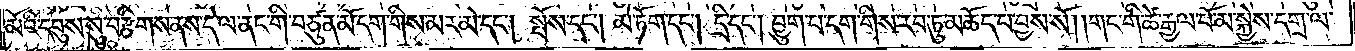མོའི་དབུས་སུ་བརྩིགས་ནས་དེ་ལ་ནང་གི་བཙུན་མོ་དག་གིས་མར་མེ་དང༌། སྤོས་དང༌། མེ་ཏོག་དང༌། དྲི་དང༌། བྱུག་པ་དག་གིས་རབ་ཏུ་མཆོད་པ་བྱས་སོ། །གང་གི་ཚེ་རྒྱལ་པོ་མ་སྐྱེས་དགྲ་ལ་
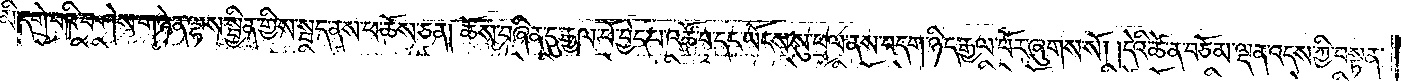མི་དགེ་བའི་བཤེས་གཉེན་ལྷས་སྦྱིན་གྱིས་སྦད་ནས་ཕ་ཆོས་ཅན། ཆོས་བཞིན་དུ་རྒྱལ་པོ་བྱེད་པ་འཚོ་བ་དང་ཡོངས་སུ་ཕྲལ་ནས་བདག་ཉིད་རྒྱལ་པོར་ཞུགས་སོ། །དེའི་ཚེ་ན་བཅོམ་ལྡན་འདས་ཀྱི་བསྟན་
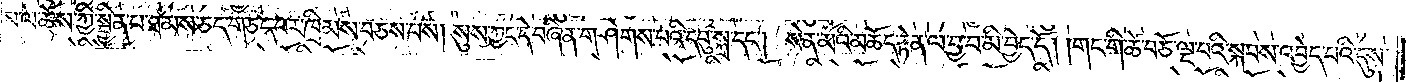པ་ལ་ཆོས་ཀྱི་སྦྱིན་པ་ཐམས་ཅད་གཅད་པར་ཁྲིམས་བཅས་པས། སུས་ཀྱང་དེ་བཞིན་གཤེགས་པའི་དབུ་སྐྲ་དང༌། སེན་མོའི་མཆོད་རྟེན་ལ་བྱ་བ་མི་བྱེད་དོ། །གང་གི་ཚེ་བཅོ་ལྔ་པའི་སྐབས་འབྱེད་པའི་དུས་
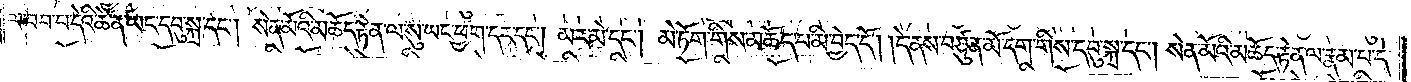ལ་བབ་པ་དེའི་ཚེ་ན་ཡང་དབུ་སྐྲ་དང༌། སེན་མོའི་མཆོད་རྟེན་ལ་སུ་ཡང་ཕྱག་དར་དང༌། མར་མེ་དང༌། མེ་ཏོག་གིས་མཆོད་པ་མི་བྱེད་དོ། །དེ་ནས་བཙུན་མོ་དག་གིས་དབུ་སྐྲ་དང༌། སེན་མོའི་མཆོད་རྟེན་ལ་རྣམ་པ་དེ་
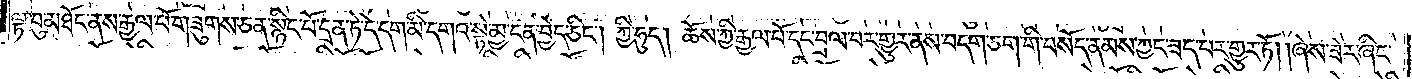ལྟ་བུ་མཐོང་ནས་རྒྱལ་པོ་གཟུགས་ཅན་སྙིང་པོ་དྲན་ཏེ་དེ་དག་མི་དགའ་སྟེ་མྱ་ངན་བྱེད་ཅིང༌། ཀྱི་ཧུད། ཆོས་ཀྱི་རྒྱལ་པོ་དང་བྲལ་བར་གྱུར་ནས་བདག་ཅག་གི་བསོད་ནམས་ཀྱང་ཟད་པར་གྱུར་ཏོ། །ཞེས་ཟེར་ཞིང་
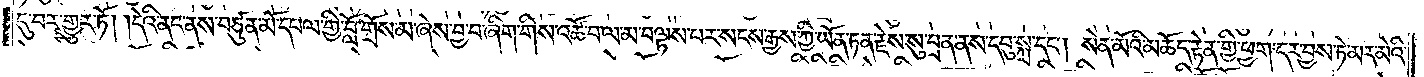དུ་བར་གྱུར་ཏོ། །དེའི་ནང་ནས་བཙུན་མོ་དཔལ་གྱི་བློ་གྲོས་མ་ཞེས་བྱ་བ་ཞིག་གིས་འཚོ་བ་ལ་མ་བལྟས་པར་སངས་རྒྱས་ཀྱི་ཡོན་ཏན་རྗེས་སུ་བྲན་ནས་དབུ་སྐྲ་དང༌། སེན་མོའི་མཆོད་རྟེན་གྱི་ཕྱག་དར་བྱས་ཏེ་མར་མེའི་
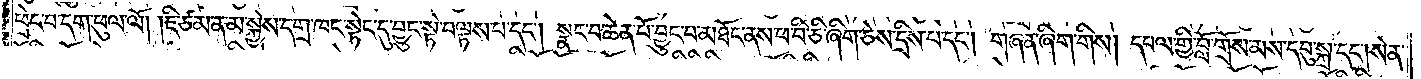ཕྲེང་བ་དག་ཕུལ་ལོ། །ཇི་ཙམ་ན་མ་སྐྱེས་དགྲ་ཁང་སྟེང་དུ་བྱུང་སྟེ་བལྟས་པ་དང༌། སྣང་བ་ཆེན་པོ་བྱུང་བ་མཐོང་ནས་ཕ་བི་ཅི་ཞིག་ཅེས་དྲིས་པ་དང༌། གཞན་ཞིག་གིས། དཔལ་གྱི་བློ་གྲོས་མས་དབུ་སྐྲ་དང༌། སེན་
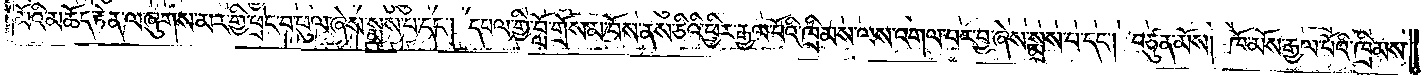མོའི་མཆོད་རྟེན་ལ་ཞུགས་མར་གྱི་ཕྲེང་བ་ཕུལ་ཞེས་སྨྲས་པ་དང༌། དཔལ་གྱི་བློ་གྲོས་མ་བོས་ནས་ཅིའི་ཕྱིར་རྒྱལ་པོའི་ཁྲིམས་ལས་འགལ་བར་བྱ་ཞེས་སྨྲས་པ་དང༌། བཙུན་མོས། ཁོ་མོས་རྒྱལ་པོའི་ཁྲིམས་
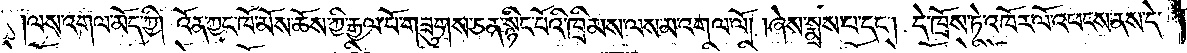ལས་འགལ་མོད་ཀྱི། འོན་ཀྱང་ཁོ་མོས་ཆོས་ཀྱི་རྒྱལ་པོ་གཟུགས་ཅན་སྙིང་པོའི་ཁྲིམས་ལས་མ་འགལ་ལོ། །ཞེས་སྨྲས་པ་དང༌། དེ་ཁྲོས་ཏེ་འཁོར་ལོ་འཕངས་ནས་དེ་
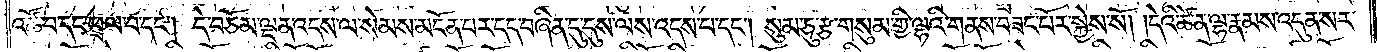འཚོ་བ་དང་ཕྲལ་བ་དང༌། དེ་བཅོམ་ལྡན་འདས་ལ་སེམས་མངོན་པར་དད་བཞིན་དུ་དུས་ལས་འདས་པ་དང༌། སུམ་ཅུ་རྩ་གསུམ་གྱི་ལྷའི་གནས་བཟང་པོར་སྐྱེས་སོ། །དེའི་ཚེ་ན་ལྷ་རྣམས་འདུན་སར་
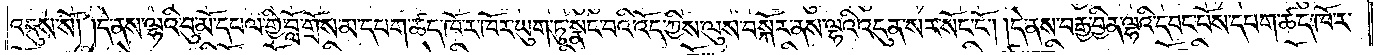འདུས་སོ། །དེ་ནས་ལྷའི་བུ་མོ་དཔལ་གྱི་བློ་གྲོས་མ་དཔག་ཚད་ཁོ་ར་ཁོར་ཡུག་ཏུ་སྣང་བའི་འོད་ཀྱིས་ལུས་བསྐོར་ནས་ལྷའི་འདུན་སར་སོང་ངོ༌། །དེ་ནས་བརྒྱ་བྱིན་ལྷའི་དབང་པོས་དཔག་ཚད་ཁོ་ར་
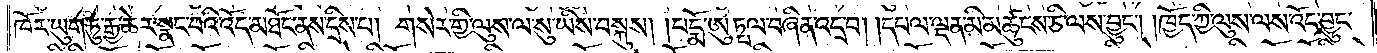ཁོར་ཡུག་ཏུ་རྒྱ་ཆེར་སྣང་བའི་འོད་མཐོང་ནས་དྲིས་པ། གསེར་གྱི་ལུས་ལ་སུ་ཡིས་བསྐུས། །པདྨོ་ཨུཏྤལ་བཞིན་འདྲ་བ། །དཔལ་ལྡན་མི་མཚུངས་ཅི་ལས་བྱུང༌། །ཁྱོད་ཀྱི་ལུས་ལས་འོད་བྱུང་
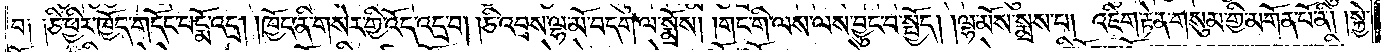བ། །ཅི་ཕྱིར་ཁྱོད་གདོང་པདྨོ་འདྲ། །ཁྱོད་ནི་གསེར་གྱི་འོད་འདྲ་བ། །ཅི་འབྲས་ལྷ་མོ་བདག་ལ་སྨྲོས། །གང་གི་ལས་ལས་བྱུང་བ་སྤྱོད། །ལྷ་མོས་སྨྲས་པ། འཇིག་རྟེན་གསུམ་གྱི་མགོན་པོ་ནི། །སྐྱེ་
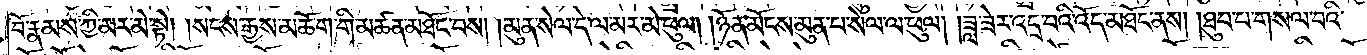བོ་རྣམས་ཀྱི་མར་མེ་སྟེ། །སངས་རྒྱས་མཆོག་གི་མཚན་མཐོང་བས། །མུན་སེལ་དེ་ལ་མར་མེ་ཕུལ། །ཉོན་མོངས་མུན་པ་སེལ་ལ་ཕུལ། །ཟླ་ཟེར་འདྲ་བའི་འོད་མཐོང་ནས། །ཐུབ་པ་གསལ་བའི་
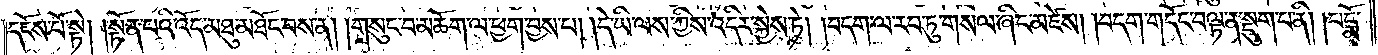དངོས་པོ་སྟེ། །སྟོན་པའི་འོད་མཐུ་མཐོང་བས་ན། །གསུང་བ་མཆོག་ལ་ཕྱག་བྱས་པ། །དེ་ཡི་ལས་ཀྱིས་འདིར་སྐྱེས་ཏེ། །བདག་ལ་རབ་ཏུ་གསལ་ཞིང་མཛེས། །བདག་གདོང་བལྟ་ན་སྡུག་པ་ནི། །པདྨོ་
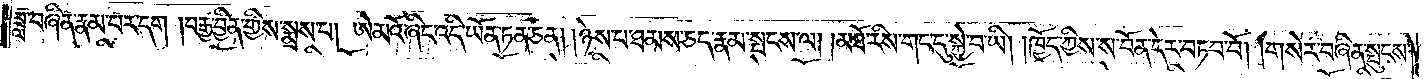ཟླ་བཞིན་རྣམ་པར་དག །བརྒྱ་བྱིན་གྱིས་སྨྲས་པ། ཨེ་མའོ་ཞིང་འདི་ཡོན་ཏན་ཅན། །ཉེས་པ་ཐམས་ཅད་རྣམ་སྤངས་ལ། །མཐོ་རིས་གང་དུ་སྐྱེ་བ་ཡི། །ཁྱོད་ཀྱིས་ས་བོན་དེར་བཏབ་བོ། །གསེར་བཞིན་སྤུངས་
